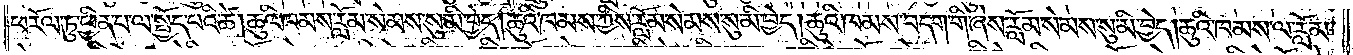ཕ་རོལ་ཏུ་ཕྱིན་པ་ལ་སྤྱོད་པའི་ཚེ། ཆུའི་ཁམས་རློམ་སེམས་སུ་མི་བྱེད། ཆུའི་ཁམས་ཀྱིས་རློམ་སེམས་སུ་མི་བྱེད། ཆུའི་ཁམས་བདག་གི་ཞེས་རློམ་སེམས་སུ་མི་བྱེད། ཆུའི་ཁམས་ལ་རློམ་
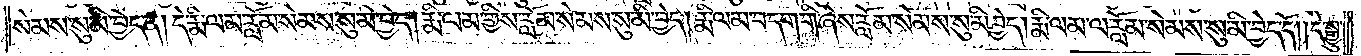སེམས་སུ་མི་བྱེད་ན། དེ་རྨི་ལམ་རློམ་སེམས་སུ་མི་བྱེད། རྨི་ལམ་གྱིས་རློམ་སེམས་སུ་མི་བྱེད། རྨི་ལམ་བདག་གི་ཞེས་རློམ་སེམས་སུ་མི་བྱེད། རྨི་ལམ་ལ་རློམ་སེམས་སུ་མི་བྱེད་དོ། །དེ་སྒྱུ་
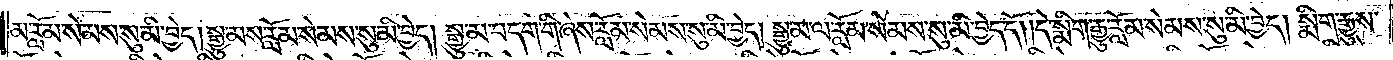མ་རློམ་སེམས་སུ་མི་བྱེད། སྒྱུ་མས་རློམ་སེམས་སུ་མི་བྱེད། སྒྱུ་མ་བདག་གི་ཞེས་རློམ་སེམས་སུ་མི་བྱེད། སྒྱུ་མ་ལ་རློམ་སེམས་སུ་མི་བྱེད་དོ། །དེ་སྨིག་རྒྱུ་རློམ་སེམས་སུ་མི་བྱེད། སྨིག་རྒྱུས་
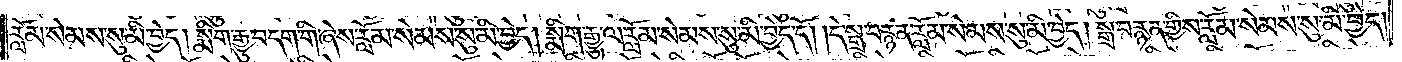རློམ་སེམས་སུ་མི་བྱེད། སྨིག་རྒྱུ་བདག་གི་ཞེས་རློམ་སེམས་སུ་མི་བྱེད། སྨིག་རྒྱུ་ལ་རློམ་སེམས་སུ་མི་བྱེད་དོ། །དེ་སྒྲ་བརྙན་རློམ་སེམས་སུ་མི་བྱེད། སྒྲ་བརྙན་གྱིས་རློམ་སེམས་སུ་མི་བྱེད།
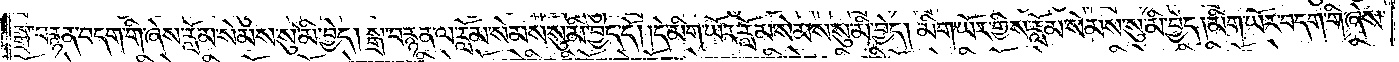སྒྲ་བརྙན་བདག་གི་ཞེས་རློམ་སེམས་སུ་མི་བྱེད། སྒྲ་བརྙན་ལ་རློམ་སེམས་སུ་མི་བྱེད་དོ། །དེ་མིག་ཡོར་རློམ་སེམས་སུ་མི་བྱེད། མིག་ཡོར་གྱིས་རློམ་སེམས་སུ་མི་བྱེད། མིག་ཡོར་བདག་གི་ཞེས་
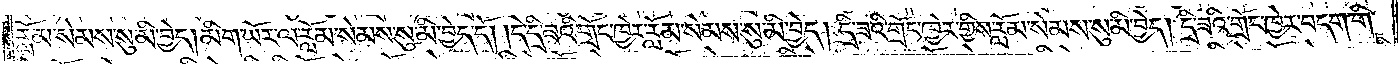རློམ་སེམས་སུ་མི་བྱེད། མིག་ཡོར་ལ་རློམ་སེམས་སུ་མི་བྱེད་དོ། །དེ་དྲི་ཟའི་གྲོང་ཁྱེར་རློམ་སེམས་སུ་མི་བྱེད། དྲི་ཟའི་གྲོང་ཁྱེར་གྱིས་རློམ་སེམས་སུ་མི་བྱེད། དྲི་ཟའི་གྲོང་ཁྱེར་བདག་གི་
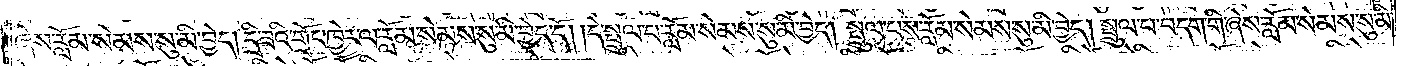ཞེས་རློམ་སེམས་སུ་མི་བྱེད། དྲི་ཟའི་གྲོང་ཁྱེར་ལ་རློམ་སེམས་སུ་མི་བྱེད་དོ། །དེ་སྤྲུལ་པ་རློམ་སེམས་སུ་མི་བྱེད། སྤྲུལ་པས་རློམ་སེམས་སུ་མི་བྱེད། སྤྲུལ་པ་བདག་གི་ཞེས་རློམ་སེམས་སུ་མི་
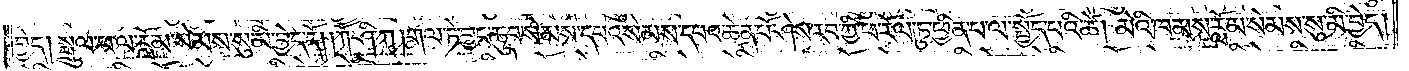བྱེད། སྤྲུལ་པ་ལ་རློམ་སེམས་སུ་མི་བྱེད་དོ། །ཀཽ་ཤི་ཀ། གལ་ཏེ་བྱང་ཆུབ་སེམས་དཔའ་སེམས་དཔའ་ཆེན་པོ་ཤེས་རབ་ཀྱི་ཕ་རོལ་ཏུ་ཕྱིན་པ་ལ་སྤྱོད་པའི་ཚེ། མེའི་ཁམས་རློམ་སེམས་སུ་མི་བྱེད།
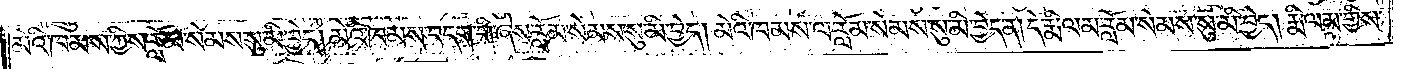མེའི་ཁམས་ཀྱིས་རློམ་སེམས་སུ་མི་བྱེད། མེའི་ཁམས་བདག་གི་ཞེས་རློམ་སེམས་སུ་མི་བྱེད། མེའི་ཁམས་ལ་རློམ་སེམས་སུ་མི་བྱེད་ན། དེ་རྨི་ལམ་རློམ་སེམས་སུ་མི་བྱེད། རྨི་ལམ་གྱིས་
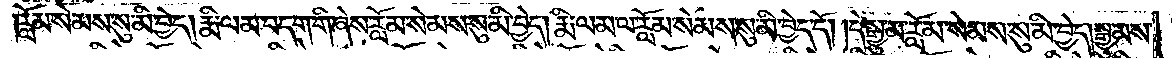རློམ་སེམས་སུ་མི་བྱེད། རྨི་ལམ་བདག་གི་ཞེས་རློམ་སེམས་སུ་མི་བྱེད། རྨི་ལམ་ལ་རློམ་སེམས་སུ་མི་བྱེད་དོ། །དེ་སྒྱུ་མ་རློམ་སེམས་སུ་མི་བྱེད། སྒྱུ་མས་
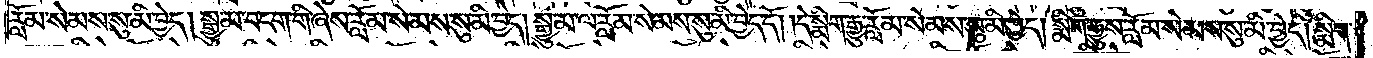རློམ་སེམས་སུ་མི་བྱེད། སྒྱུ་མ་བདག་གི་ཞེས་རློམ་སེམས་སུ་མི་བྱེད། སྒྱུ་མ་ལ་རློམ་སེམས་སུ་མི་བྱེད་དོ། །དེ་སྨིག་རྒྱུ་རློམ་སེམས་སུ་མི་བྱེད། སྨིག་རྒྱུས་རློམ་སེམས་སུ་མི་བྱེད། སྨིག་
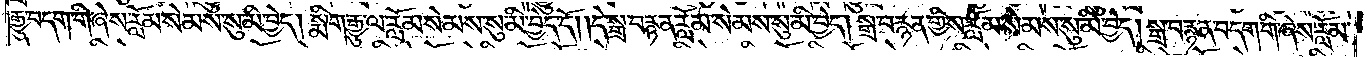རྒྱུ་བདག་གི་ཞེས་རློམ་སེམས་སུ་མི་བྱེད། སྨིག་རྒྱུ་ལ་རློམ་སེམས་སུ་མི་བྱེད་དོ། །དེ་སྒྲ་བརྙན་རློམ་སེམས་སུ་མི་བྱེད། སྒྲ་བརྙན་གྱིས་རློམ་སེམས་སུ་མི་བྱེད། སྒྲ་བརྙན་བདག་གི་ཞེས་རློམ་
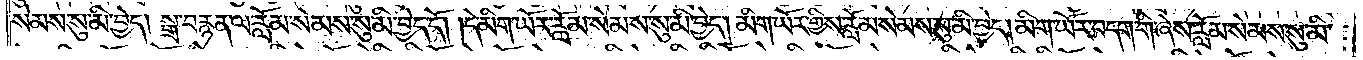སེམས་སུ་མི་བྱེད། སྒྲ་བརྙན་ལ་རློམ་སེམས་སུ་མི་བྱེད་དོ། །དེ་མིག་ཡོར་རློམ་སེམས་སུ་མི་བྱེད། མིག་ཡོར་གྱིས་རློམ་སེམས་སུ་མི་བྱེད། མིག་ཡོར་བདག་གི་ཞེས་རློམ་སེམས་སུ་མི་
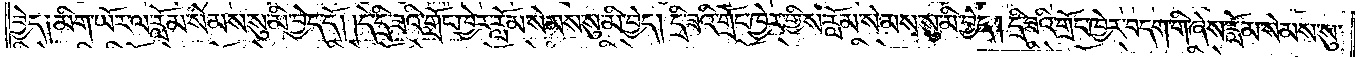བྱེད༑ མིག་ཡོར་ལ་རློམ་སེམས་སུ་མི་བྱེད་དོ། །དེ་དྲི་ཟའི་གྲོང་ཁྱེར་རློམ་སེམས་སུ་མི་བྱེད། དྲི་ཟའི་གྲོང་ཁྱེར་གྱིས་རློམ་སེམས་སུ་མི་བྱེད། དྲི་ཟའི་གྲོང་ཁྱེར་བདག་གི་ཞེས་རློམ་སེམས་སུ་
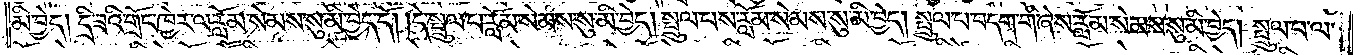མི་བྱེད། དྲི་ཟའི་གྲོང་ཁྱེར་ལ་རློམ་སེམས་སུ་མི་བྱེད་དོ། །དེ་སྤྲུལ་པ་རློམ་སེམས་སུ་མི་བྱེད། སྤྲུལ་པས་རློམ་སེམས་སུ་མི་བྱེད། སྤྲུལ་པ་བདག་གི་ཞེས་རློམ་སེམས་སུ་མི་བྱེད། སྤྲུལ་པ་ལ་
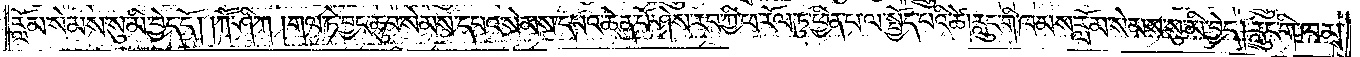རློམ་སེམས་སུ་མི་བྱེད་དོ། །ཀཽ་ཤི་ཀ། གལ་ཏེ་བྱང་ཆུབ་སེམས་དཔའ་སེམས་དཔའ་ཆེན་པོ་ཤེས་རབ་ཀྱི་ཕ་རོལ་ཏུ་ཕྱིན་པ་ལ་སྤྱོད་པའི་ཚེ། རླུང་གི་ཁམས་རློམ་སེམས་སུ་མི་བྱེད། རླུང་གི་ཁམས་
